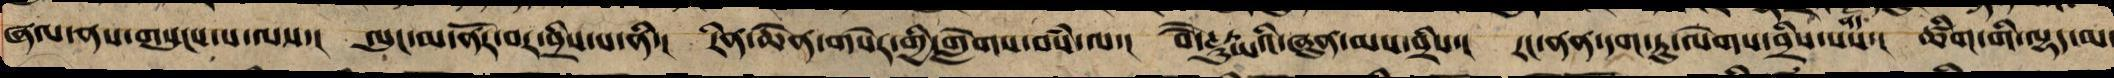ཞལ་ནས་གསུངས་པ་ལས་། ལུང་མ་ནོར་བར་བྲིས་པ་ནི་། རིན་ཆེན་གསེར་གྱི་གླེགས་བཾ་ལ་། བཻ་ཌཱུརྱའི་ཞུན་མ་བྲིས་། རང་ནན་དག་ཏུ་ལེགས་བྲིས་པས་། ཚིག་གི་ལྷད་མ་
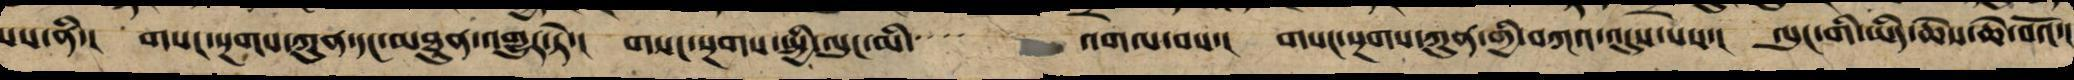པས་ནི་། གསང་སྔགས་ཀུན་དང་མཐུན་འགྱུར་ཏེ་། གསང་སྔགས་སྤྱི་ལུང་མི་་་་་ འགལ་བས་། གསང་སྔགས་ཀུན་གྱི་བཀའ་འདུས་པས་། ལུང་གི་ཡིད་ཆེས་ཆེ་བའོ་།
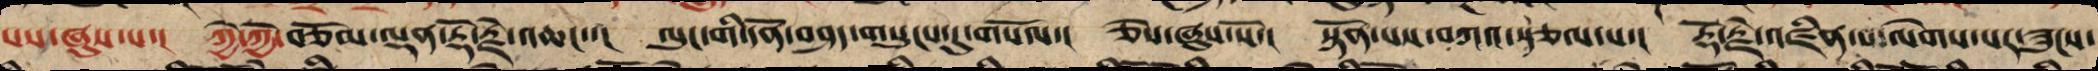པས་ཞུས་པ་། ཀྱེ་ཀྱེ་བཅོམ་ལྡན་རྡོ་རྗེ་འཆང་་། ལུང་གི་དོན་བཤད་གསུངས་དུ་གསོལ་། ཅེས་ཞུས་སོ་། སྟོན་པས་བཀའ་སྩལ་པ་། རྡོ་རྗེ་འཛིན་པ་ལེགས་པར་ཟུངས་
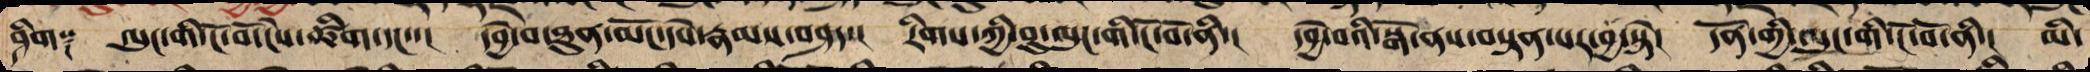ཤིག༑ ལུང་གི་ངོ་བོ་ངེས་ཚིག་དང་་། དབྱེ་བ་ཐུན་མོང་དཔེ་རྣམས་བཤད་། རིགས་ཀྱི་བུ་ལུང་གི་ངོ་བོ་ནི་། དབྱེ་བའི་སྒོ་ནས་བསྟན་པར་བྱ་སྟེ་། དོན་གྱི་ལུང་གི་ངོ་བོ་ནི་། མི་
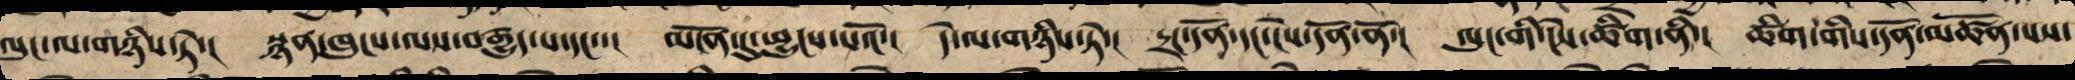ལུང་ལ་གཉིས་ཏེ་། སྙན་ཁུང་ལས་བརྒྱུད་པ་དང་་། མངོན་དུ་ཕྱུངས་པའོ་། དེ་ལ་གཉིས་ཏེ་། དྲང་དོན་དང་ངེས་དོན་ནོ་། ལུང་གི་ངེས་ཚིག་ནི་། ཚིག་གིས་དོན་མཚོན་པས་
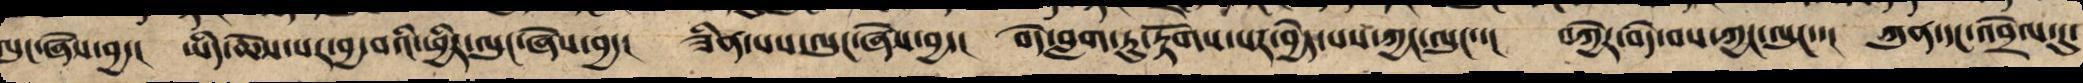ལུང་ཞེས་བྱ་། ཡིད་ཆེས་པར་བྱ་བའི་ཕྱིར་ལུང་ཞེས་བྱ་། ཟིན་པས་ལུང་ཞེས་བྱ་། བདེ་བླག་ཏུ་རྟོགས་པར་བྱེད་པས་ཀྱང་ལུང་་། བཀྱེར་བདེ་བས་ཀྱང་ལུང་་། ཀུན་དང་འབྲེལ་དུ་
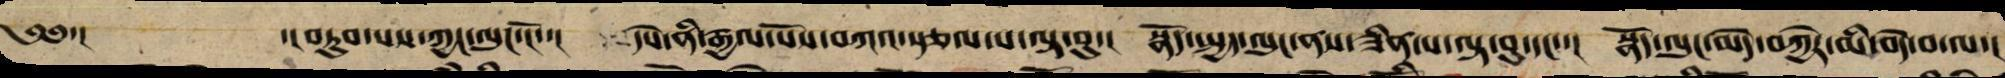༄༅་། ་།བཏུབ་པས་ཀྱང་ལུང་ངོ་་། དེས་ནི་རྒྱལ་པོས་བཀའ་སྩལ་པ་ལྟ་བུ་། སྣོད་སྤྱད་ལུང་ནས་ཟིན་པ་ལྟ་བུ་དང་་། སྣོད་ལུང་མེད་བཀྱེར་མི་བདེ་བ་ལ་།
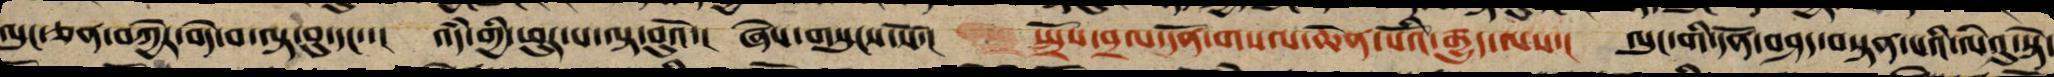ལུང་ཅན་བཀྱེར་བདེ་བ་ལྟ་བུ་དང་་། འདཾ་གྱི་ཕུར་པ་ལྟ་བུའོ་། ཞེས་གསུངས་སོ་། སྤྲོས་བྲལ་དོན་གསལ་ཆེན་པོའི་རྒྱུད་ལས་། ལུང་གི་དོན་བཤད་བསྟན་པའི་ལེའུ་སྟེ་
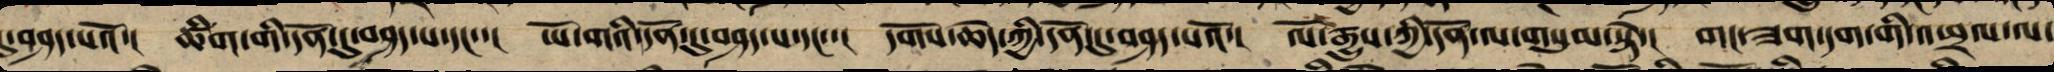དུ་བཤད་པའོ་། ཚིག་གི་དོན་དུ་བཤད་པ་དང་་། ཡོ་གའི་དོན་དུ་བཤད་པ་དང་་། དགོས་ཆེད་ཀྱི་དོན་དུ་བཤད་པའོ་། ལོ་རྒྱུས་ཀྱི་དོན་ལ་གསུམ་སྟེ་། གང་ཟག་དག་གིས་འཕྲལ་ལ་
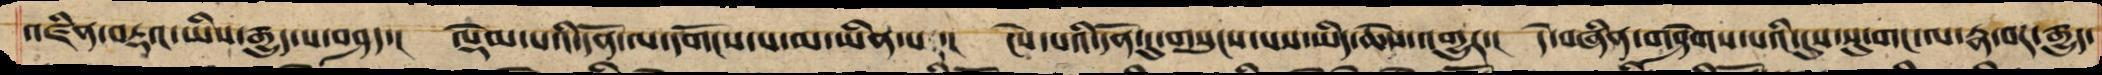འཛིན་བརྡའ་ཡིས་རྒྱུད་པ་བཤད་། ལྡེམ་པའི་དོན་ལ་དགོངས་པ་མ་ཡིན་པར་། ངེས་པའི་དོན་དུ་གསུངས་པས་ཡིད་ཆེས་འགྱུར་། དེ་བཞིན་གཤེགས་པའི་དུས་སུ་གང་ལ་རྣ་བར་རྒྱུད་
